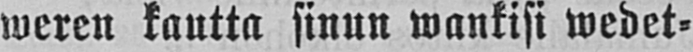weren kautta sinun wankisi wedet-
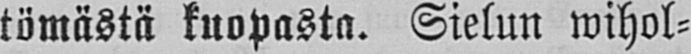tömästä kuopasta. Sielun wihol-
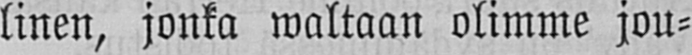linen, jonka waltaan olimme jou-
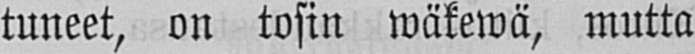tuneet, on tosin wäkewä, mutta
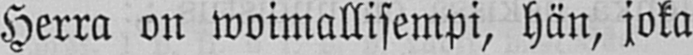Herra on woimallisempi, hän, joka
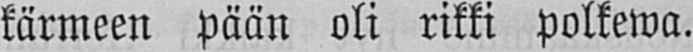kärmeen pään oli rikki polkewa.
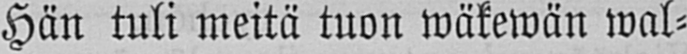Hän tuli meitä tuon wäkewän wal-
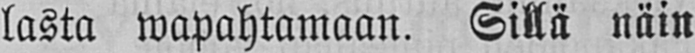lasta wapahtamaan Sillä näin
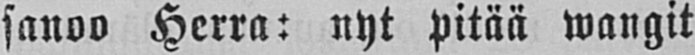sanoo Herra: nyt pitää wangit
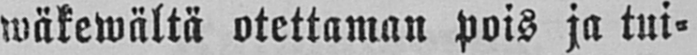wäkewältä otettaman pois ja tui-
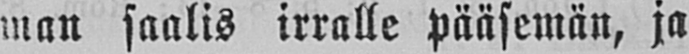man saalis irralle pääsemän, ja
